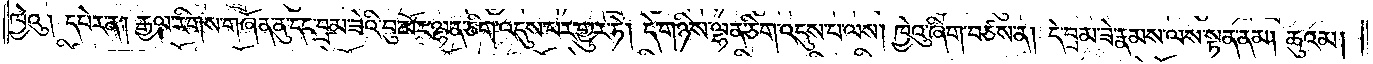ཁྱེའུ། དཔེར་ན། རྒྱལ་རིགས་གཞོན་ནུ་དང་བྲམ་ཟེའི་བུ་མོར་ལྷན་ཅིག་འདུས་པར་གྱུར་ཏེ། དེ་གཉིས་ལྷན་ཅིག་འདུས་པ་ལས། ཁྱེའུ་ཞིག་བཙས་ན། དེ་བྲམ་ཟེ་རྣམས་ལས་སྟན་ནམ། ཆུའམ།
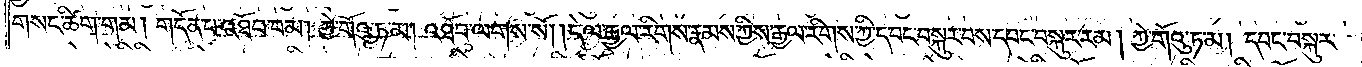གསང་ཚིག་གམ། གདོན་པ་འཐོབ་བམ། ཀྱེ་གོའུ་ཏ་མ། འཐོབ་ལགས་སོ། །དེ་ལ་རྒྱལ་རིགས་རྣམས་ཀྱིས་རྒྱལ་རིགས་ཀྱི་དབང་བསྐུར་བས་དབང་བསྐུར་རམ། ཀྱེ་གོའུ་ཏ་མ། དབང་བསྐུར་
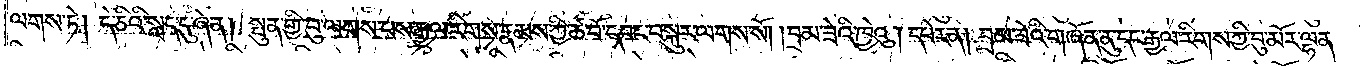ལགས་ཏེ། དེ་ཅིའི་སླད་དུ་ཞེ་ན། སྤུན་གྱི་བུ་ལགས་པས་རྒྱལ་རིགས་རྣམས་ཀྱི་ཚ་བོ་དབང་བསྐུར་ལགས་སོ། །བྲམ་ཟེའི་ཁྱེའུ། དཔེར་ན། བྲམ་ཟེའི་གཞོན་ནུ་དང་རྒྱལ་རིགས་ཀྱི་བུ་མོར་ལྷན་
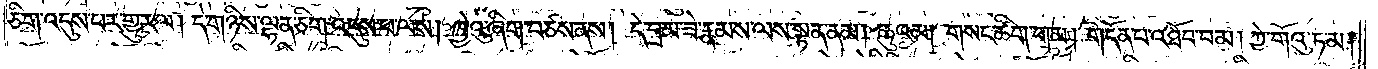ཅིག་འདུས་པར་གྱུར་ལ། དེ་གཉིས་ལྷན་ཅིག་འདུས་པ་ལས། ཁྱེའུ་ཞིག་བཙས་ནས། དེ་བྲམ་ཟེ་རྣམས་ལས་སྟན་ནམ། ཆུའམ། གསང་ཚིག་གམ། གདོན་པ་འཐོབ་བམ། ཀྱེ་གོའུ་ཏ་མ།
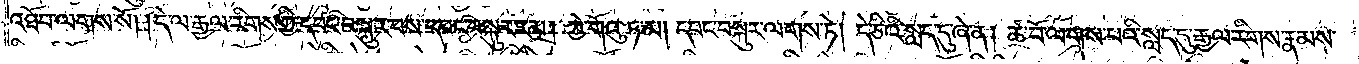འཐོབ་ལགས་སོ། །དེ་ལ་རྒྱལ་རིགས་ཀྱི་དབང་བསྐུར་བས་དབང་བསྐུར་རམ། ཀྱེ་གོའུ་ཏ་མ། དབང་བསྐུར་ལགས་ཏེ། དེ་ཅིའི་སླད་དུ་ཞེ་ན། ཚ་བོ་ལགས་པའི་སླད་དུ་རྒྱལ་རིགས་རྣམས་
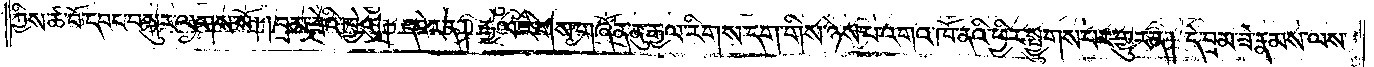ཀྱིས་ཚ་བོ་དབང་བསྐུར་ལགས་སོ། །བྲམ་ཟེའི་ཁྱེའུ། དཔེར་ན། རྒྱལ་རིགས་གཞོན་ནུ་རྒྱལ་རིགས་དག་གིས་ཉེས་པ་འགའ་ཁོ་ནའི་ཕྱིར་སྤྱུགས་པར་གྱུར་ན། དེ་བྲམ་ཟེ་རྣམས་ལས་
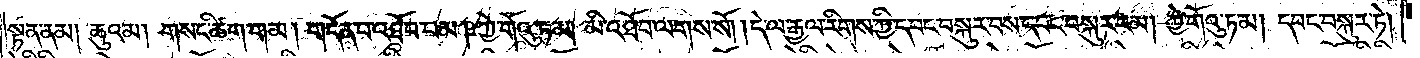སྟན་ནམ། ཆུའམ། གསང་ཚིག་གམ། གདོན་པ་འཐོབ་བམ། ཀྱེ་གོའུ་ཏམ། མི་འཐོབ་ལགས་སོ། །དེ་ལ་རྒྱལ་རིགས་ཀྱི་དབང་བསྐུར་བས་དབང་བསྐུར་རམ། ཀྱེ་གོའུ་ཏ་མ། དབང་བསྐུར་ཏེ།
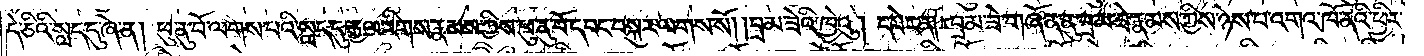དེ་ཅིའི་སླད་དུ་ཞེ་ན། ཕུ་ནུ་བོ་ལགས་པའི་སླད་དུ་རྒྱལ་རིགས་རྣམས་ཀྱིས་ཕུ་ནུ་བོ་དབང་བསྐུར་ལགས་སོ། །བྲམ་ཟེའི་ཁྱེའུ། དཔེར་ན། བྲམ་ཟེ་གཞོན་ནུ་བྲམ་ཟེ་རྣམས་ཀྱིས་ཉེས་པ་འགའ་ཁོ་ནའི་ཕྱིར་
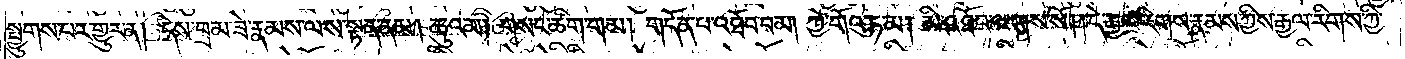སྤྱུགས་པར་གྱུར་ན། དེས་བྲམ་ཟེ་རྣམས་ལས་སྟན་ནམ། ཆུའམ། གསང་ཚིག་གམ། གདོན་པ་འཐོབ་བམ། ཀྱེ་གོའུ་ཏ་མ། མི་འཐོབ་ལགས་སོ། །དེ་རྒྱལ་རིགས་རྣམས་ཀྱིས་རྒྱལ་རིགས་ཀྱི་
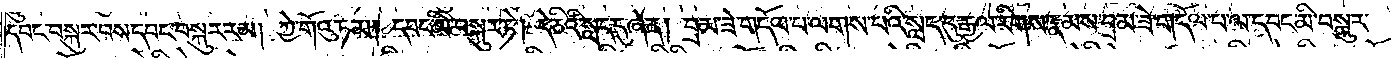དབང་བསྐུར་བས་དབང་བསྐུར་རམ། ཀྱེ་གོའུ་ཏ་མ། དབང་མི་བསྐུར་ཏེ། དེ་ཅིའི་སླད་དུ་ཞེ་ན། བྲམ་ཟེ་གདོལ་པ་ལགས་པའི་སླད་དུ་རྒྱལ་རིགས་རྣམས་བྲམ་ཟེ་གདོལ་པ་ལ་དབང་མི་བསྐུར་
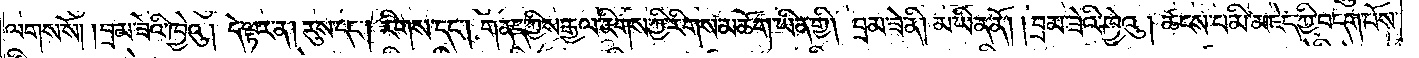ལགས་སོ། །བྲམ་ཟེའི་ཁྱེའུ། དེ་ལྟར་ན། རུས་དང༌། རིགས་དང༌། གནད་ཀྱིས་རྒྱལ་རིགས་ཀྱི་རིགས་མཆོག་ཡིན་གྱི། བྲམ་ཟེ་ནི། མ་ཡིན་ནོ། །བྲམ་ཟེའི་ཁྱེའུ། ཚངས་པ་མི་མཇེད་ཀྱི་བདག་པོས་
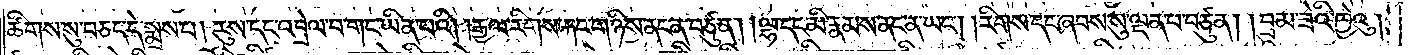ཚིགས་སུ་བཅད་དེ་སྨྲས་པ། རུས་དང་འབྲེལ་བ་གང་ཡིན་པའི། །རྒྱལ་རིགས་རྐང་གཉིས་ནང་ན་བཙུན། །ལྷ་དང་མི་རྣམས་ནང་ན་ཡང༌། །རིགས་དང་ཞབས་སུ་ལྡན་པ་བཙུན། །བྲམ་ཟེའི་ཁྱེའུ།
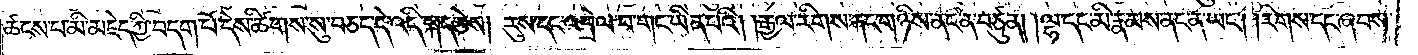ཚངས་པ་མི་མཇེད་ཀྱི་བདག་པོ་དེས་ཚིགས་སུ་བཅད་དེ་འདི་སྐད་ཅེས། རུས་དང་འབྲེལ་བ་གང་ཡིན་པའི། །རྒྱལ་རིགས་རྐང་གཉིས་ནང་ན་བཙུན། །ལྷ་དང་མི་རྣམས་ནང་ན་ཡང༌། །རིགས་དང་ཞབས་
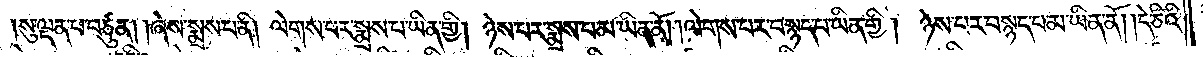སུ་ལྡན་པ་བཙུན། །ཞེས་སྨྲས་པ་ནི། ལེགས་པར་སྨྲས་པ་ཡིན་གྱི། ཉེས་པར་སྨྲས་པ་མ་ཡིན་ནོ། །ལེགས་པར་བསྙད་པ་ཡིན་གྱི། ཉེས་པར་བསྙད་པ་མ་ཡིན་ནོ། །དེ་ཅིའི་
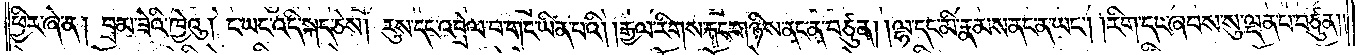ཕྱིར་ཞེ་ན། བྲམ་ཟེའི་ཁྱེའུ། ང་ཡང་འདི་སྐད་ཅེས། རུས་དང་འབྲེལ་བ་གང་ཡིན་པའི། །རྒྱལ་རིགས་རྐང་གཉིས་ནང་ན་བཙུན། །ལྷ་དང་མི་རྣམས་ནང་ན་ཡང༌། །རིག་དང་ཞབས་སུ་ལྡན་པ་བཙུན། །
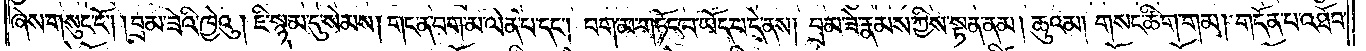ཞེས་གསུང་ངོ༌། །བྲམ་ཟེའི་ཁྱེའུ། ཇི་སྙམ་དུ་སེམས། གང་ན་བག་མ་ལེན་པ་དང༌། བག་མ་གཏོང་བ་ཡོད་པ་དེ་ནས། བྲམ་ཟེ་རྣམས་ཀྱིས་སྟན་ནམ། ཆུའམ། གསང་ཚིག་གམ། གདོན་པ་འཐོབ་
